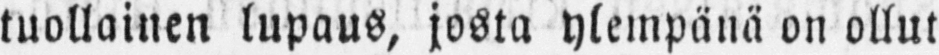tuollainen lupaus, josta ylempänä on ollut
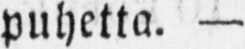puhetta. —
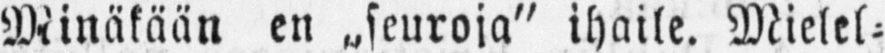Minäkään en „seuroja" ihaile. Mielel-
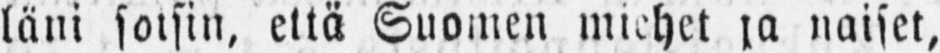läni satsin, että Suomen miehet ja naiset,
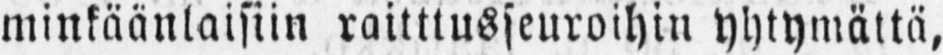minkäänlaisiin raitttusseuroihin yhtymättä,
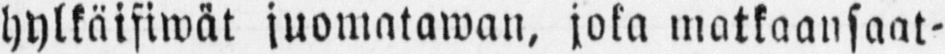hylkäisiwät juomatawan, joka matkaansaat-
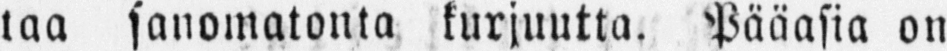taa sanomatonta kurjuutta. Pääasia on
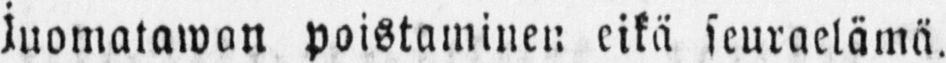juomatawan poistaminen eikä seuraelämä.
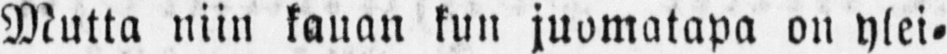Mutta niin kauan kun juomatapa on ylei-
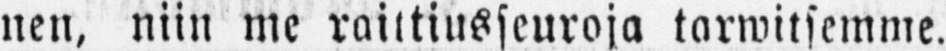nen, niin me raittiusseuroja tarwitsemme.
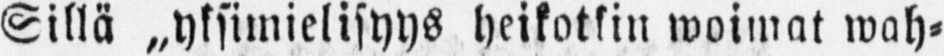Sillä „yksimielisyys heikotkin woimat wah-
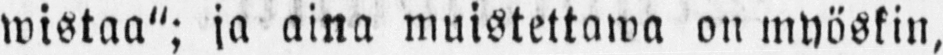wistaa"; ja aina muistettawa on myöskin,
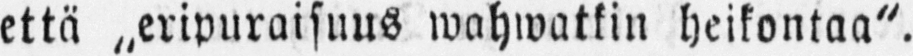että „eripuraisuus wahwatkin heikontaa".
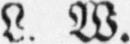L W.
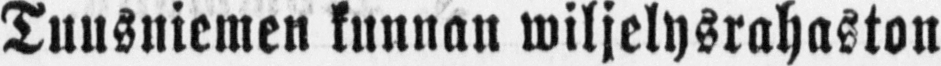Tuusniemen kunnan wiljelysrahaston
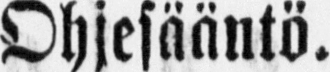Ohjesääntö.
